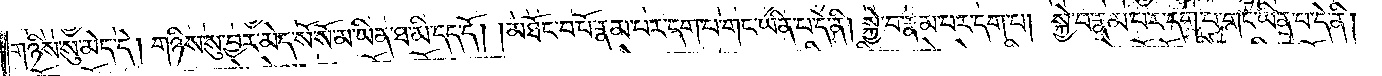གཉིས་སུ་མེད་དེ། གཉིས་སུ་བྱར་མེད་སོ་སོ་མ་ཡིན་ཐ་མི་དད་དོ། །མཐོང་བ་པོ་རྣམ་པར་དག་པ་གང་ཡིན་པ་དེ་ནི། སྐྱེ་པ་རྣམ་པར་དག་པ། སྐྱེ་བ་རྣམ་པར་དག་པ་གང་ཡིན་པ་དེ་ནི་
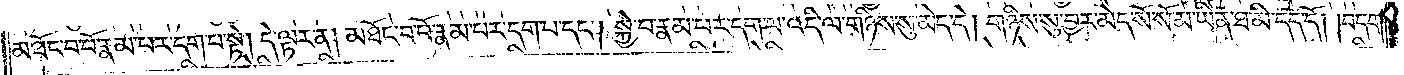མཐོང་བ་པོ་རྣམ་པར་དག་པ་སྟེ། དེ་ལྟར་ན། མཐོང་བ་པོ་རྣམ་པར་དག་པ་དང༌། སྐྱེ་བ་རྣམ་པར་དག་པ་འདི་ལ་གཉིས་སུ་མེད་དེ། གཉིས་སུ་བྱར་མེད་སོ་སོ་མ་ཡིན་ཐ་མི་དད་དོ། །བདག་
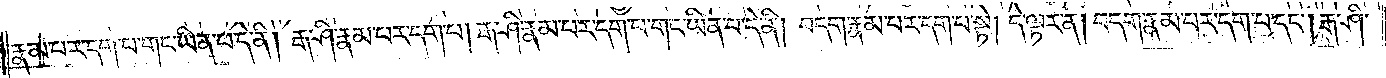རྣམ་པར་དག་པ་གང་ཡིན་པ་དེ་ནི། རྒ་ཤི་རྣམ་པར་དག་པ། རྒ་ཤི་རྣམ་པར་དག་པ་གང་ཡིན་པ་དེ་ནི། བདག་རྣམ་པར་དག་པ་སྟེ། དེ་ལྟར་ན། བདག་རྣམ་པར་དག་པ་དང༌། རྒ་ཤི་
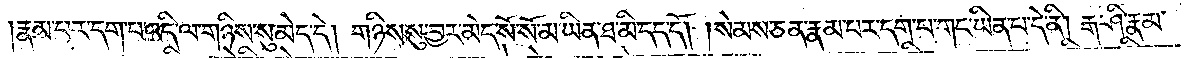རྣམ་པར་དག་པ་འདི་ལ་གཉིས་སུ་མེད་དེ། གཉིས་སུ་བྱར་མེད་སོ་སོ་མ་ཡིན་ཐ་མི་དད་དོ། །སེམས་ཅན་རྣམ་པར་དག་པ་གང་ཡིན་པ་དེ་ནི། རྒ་ཤི་རྣམ་
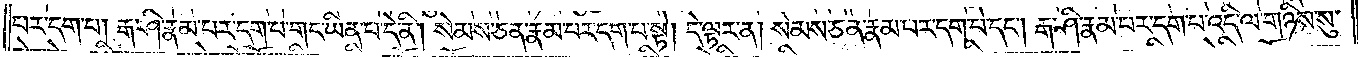པར་དག་པ། རྒ་ཤི་རྣམ་པར་དག་པ་གང་ཡིན་པ་དེ་ནི། སེམས་ཅན་རྣམ་པར་དག་པ་སྟེ། དེ་ལྟར་ན། སེམས་ཅན་རྣམ་པར་དག་པ་དང༌། རྒ་ཤི་རྣམ་པར་དག་པ་འདི་ལ་གཉིས་སུ་
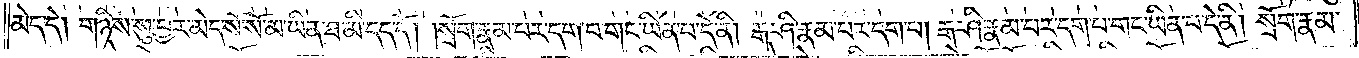མེད་དེ། གཉིས་སུ་བྱར་མེད་སོ་སོ་མ་ཡིན་ཐ་མི་དད་དོ། །སྲོག་རྣམ་པར་དག་པ་གང་ཡིན་པ་དེ་ནི། རྒ་ཤི་རྣམ་པར་དག་པ། རྒ་ཤི་རྣམ་པར་དག་པ་གང་ཡིན་པ་དེ་ནི། སྲོག་རྣམ་
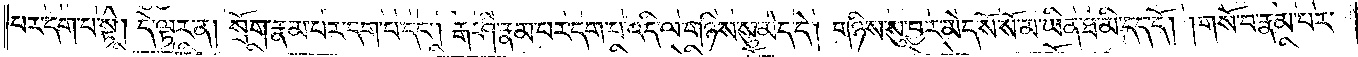པར་དག་པ་སྟེ། དེ་ལྟར་ན། སྲོག་རྣམ་པར་དག་པ་དང༌། རྒ་ཤི་རྣམ་པར་དག་པ་འདི་ལ་གཉིས་སུ་མེད་དེ། གཉིས་སུ་བྱར་མེད་སོ་སོ་མ་ཡིན་ཐ་མི་དད་དོ། །གསོ་བ་རྣམ་པར་
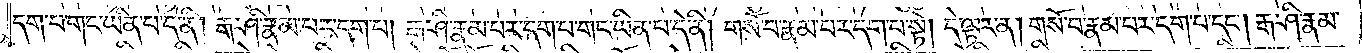དག་པ་གང་ཡིན་པ་དེ་ནི། རྒ་ཤི་རྣམ་པར་དག་པ། རྒ་ཤི་རྣམ་པར་དག་པ་གང་ཡིན་པ་དེ་ནི། གསོ་བ་རྣམ་པར་དག་པ་སྟེ། དེ་ལྟར་ན། གསོ་བ་རྣམ་པར་དག་པ་དང༌། རྒ་ཤི་རྣམ་
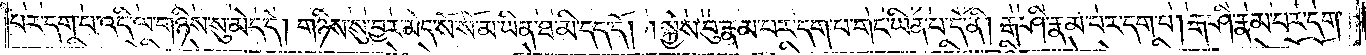པར་དག་པ་འདི་ལ་གཉིས་སུ་མེད་དེ། གཉིས་སུ་བྱར་མེད་སོ་སོ་མ་ཡིན་ཐ་མི་དད་དོ། །སྐྱེས་བུ་རྣམ་པར་དག་པ་གང་ཡིན་པ་དེ་ནི། རྒ་ཤི་རྣམ་པར་དག་པ། རྒ་ཤི་རྣམ་པར་དག་
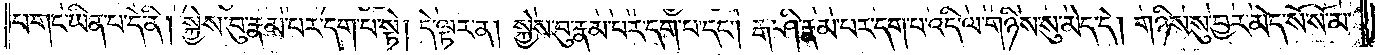པ་གང་ཡིན་པ་དེ་ནི། སྐྱེས་བུ་རྣམ་པར་དག་པ་སྟེ། དེ་ལྟར་ན། སྐྱེས་བུ་རྣམ་པར་དག་པ་དང༌། རྒ་ཤི་རྣམ་པར་དག་པ་འདི་ལ་གཉིས་སུ་མེད་དེ། གཉིས་སུ་བྱར་མེད་སོ་སོ་མ་
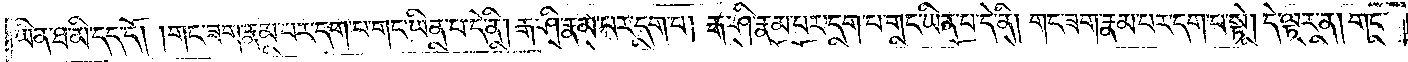ཡིན་ཐ་མི་དད་དོ། །གང་ཟག་རྣམ་པར་དག་པ་གང་ཡིན་པ་དེ་ནི། རྒ་ཤི་རྣམ་པར་དག་པ། རྒ་ཤི་རྣམ་པར་དག་པ་གང་ཡིན་པ་དེ་ནི། གང་ཟག་རྣམ་པར་དག་པ་སྟེ། དེ་ལྟར་ན། གང་
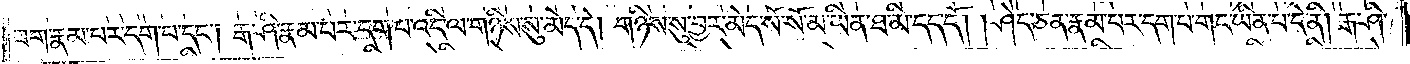ཟག་རྣམ་པར་དག་པ་དང༌། རྒ་ཤི་རྣམ་པར་དག་པ་འདི་ལ་གཉིས་སུ་མེད་དེ། གཉིས་སུ་བྱར་མེད་སོ་སོ་མ་ཡིན་ཐ་མི་དད་དོ། །ཤེད་ཅན་རྣམ་པར་དག་པ་གང་ཡིན་པ་དེ་ནི། རྒ་ཤི་
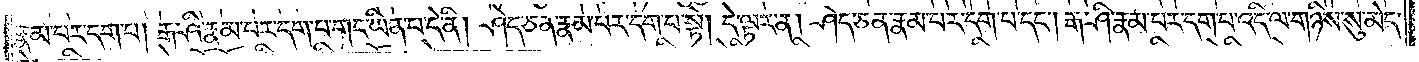རྣམ་པར་དག་པ། རྒ་ཤི་རྣམ་པར་དག་པ་གང་ཡིན་པ་དེ་ནི། ཤེད་ཅན་རྣམ་པར་དག་པ་སྟེ། དེ་ལྟར་ན། ཤེད་ཅན་རྣམ་པར་དག་པ་དང༌། རྒ་ཤི་རྣམ་པར་དག་པ་འདི་ལ་གཉིས་སུ་མེད་
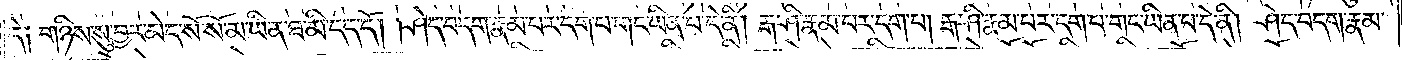དེ༑ གཉིས་སུ་བྱར་མེད་སོ་སོ་མ་ཡིན་ཐ་མི་དད་དོ། །ཤེད་བདག་རྣམ་པར་དག་པ་གང་ཡིན་པ་དེ་ནི། རྒ་ཤི་རྣམ་པར་དག་པ། རྒ་ཤི་རྣམ་པར་དག་པ་གང་ཡིན་པ་དེ་ནི། ཤེད་བདག་རྣམ་
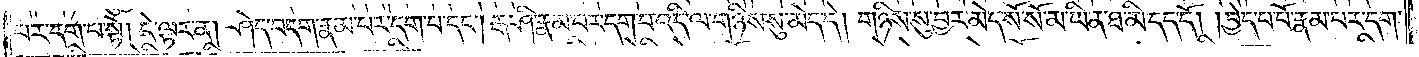པར་དག་པ་སྟེ། དེ་ལྟར་ན། ཤེད་བདག་རྣམ་པར་དག་པ་དང༌། རྒ་ཤི་རྣམ་པར་དག་པ་འདི་ལ་གཉིས་སུ་མེད་དེ། གཉིས་སུ་བྱར་མེད་སོ་སོ་མ་ཡིན་ཐ་མི་དད་དོ། །བྱེད་པ་པོ་རྣམ་པར་དག་
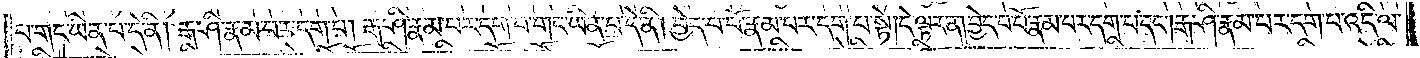པ་གང་ཡིན་པ་དེ་ནི། རྒ་ཤི་རྣམ་པར་དག་པ། རྒ་ཤི་རྣམ་པར་དག་པ་གང་ཡིན་པ་དེ་ནི། བྱེད་པ་པོ་རྣམ་པར་དག་པ་སྟེ། དེ་ལྟར་ན། བྱེད་པ་པོ་རྣམ་པར་དག་པ་དང༌། རྒ་ཤི་རྣམ་པར་དག་པ་འདི་ལ་
